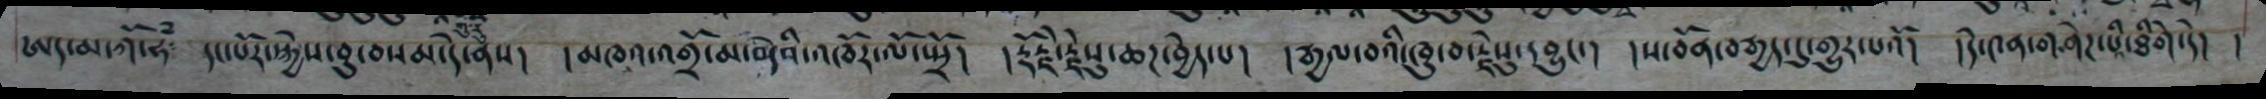ཨད་མ་ཀོ་ཧཾ༴  དང་པོར་སྐྱེས་བུ་བསམ་དེ་ནས།  །མཁའ་འགྲོ་མ་བདེའ་འཁོར་ལོ་སྤྲོ།  །རྡེརྗེ་རྗེསུ་ཆཌ་བྱེད་པ།  །རྒྱལ་བའི་ཁུ་བ་རྗེསུ་དབྱུང་། །ས་བོན་བརྒྱད་དུ་གྱུར་པའོ།  །དེ་༤ན་གཤེཌ་པའི་ཐིགེ་དེ།   །
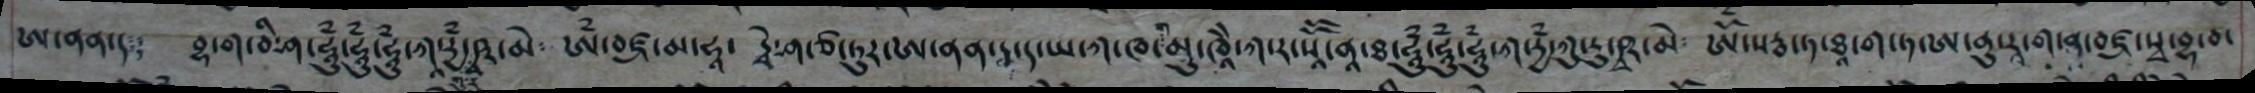ཨ་ནན་ད༴  བྷ་ག་བི་ཤ་ཧཱུྃ་ཧཱུྃ་ཧཱུྃ་ཀཱ་རྱྃ་ཥ་མེ༴  ཨྃ་བཛ་མ་ཧཱ་  དྭེ་ཤ་ཙ་ཏུར་ཨ་ནན་དྭ་ད་ཡ་ཀ་ཁ་ག་མུ་ཁཱེེ་ཀ་ར་སཱོོ་ནཱ་ཐ་ཧཱུྃ་ཧཱུྃ་ཧཱུྃ་ཀ་རྱཾ་ཀུ་རུ་ཥ་མེ༴  ཨོཾ་སརྦ་ཏ་ཐ་ཨ་ནུ་ར་ག་ན་བཛ་སྭ་བྷ་བ་
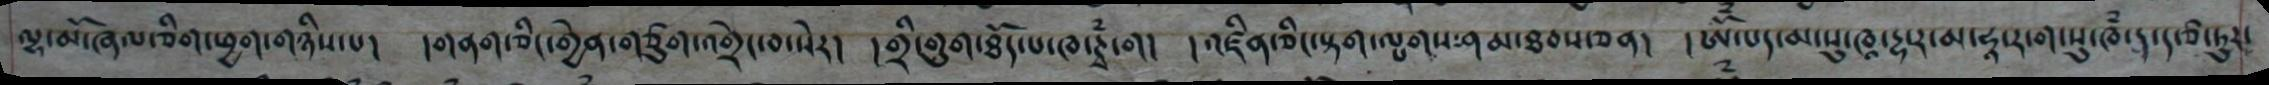ལྷ་མོ་ཞལ་ཅིག་ཕྱག་གཉིས་པ། །གནག་ཅིང་གྱེན་གཙུག་འགྲེང་བ་སེར། །གྲི་གུག་ཐོད་པ་ཁ་ཊྭཾ་ག། །འཛིན་ཅིང་སྟག་ལྤགས་ཤམ་ཐབས་ཅན། །ཨོཾ་པད་མ་སུ་ཁཱ་དྷ་ར་མ་ཧཱ་ར་ག་སུ་ཁཾ་ད་ད་ཙ་ཏུར་
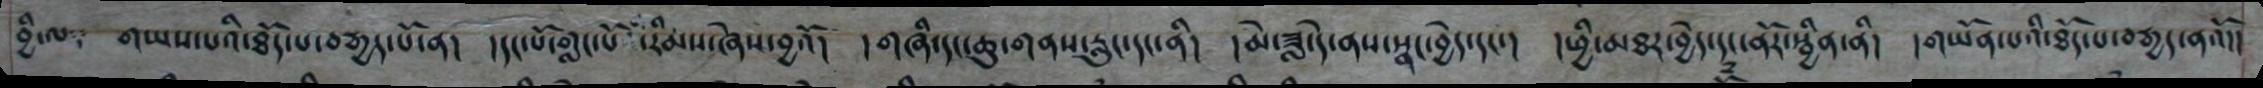བྱི་ལ གཡས་པའི་ཐོད་པ་བརྒྱད་པོ་ན། །དང་པོ་གླང་པོ་རིམས་ཞེས་བྱའོ། །གཞི་དང་ཆུ་གནས་རླུང་དང་ནི། །མེ་ཟླ་དེ་ནས་སྣང་བྱེད་དང་། །ཕྱི་མཐར་བྱེད་དང་ནོར་སྦྱིན་ནི། །གཡོན་པའི་ཐོད་པ་བརྒྱད་ནའོ།།
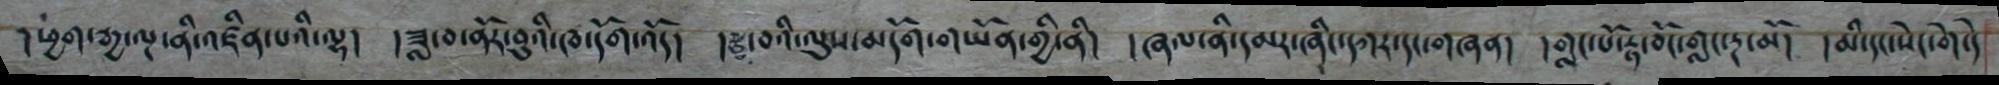།ཕྱག་རྒྱ་ལྔ་ནི་འཛིན་པའི་ལྷ། །ཟླ་བ་ནོར་བུའི་ཁ་དོག་འོད། །རྩ་བའི་ལུས་མདོག་གཡོན་གྱི་ནི། །ཞལ་ནི་དམར་ཞིང་དཀར་དང་གཞན། །གླང་པོ་རྟ་བོང་གླང་རྔ་མོ། །མི་དང་སེང་གེ་དེ
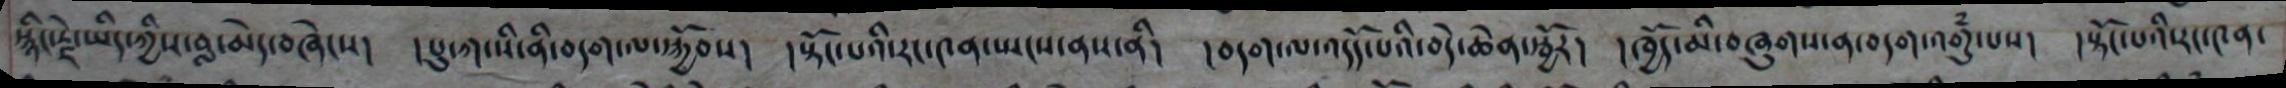སྙིང་རྗེ་ཡིད་ཀྱིས་བླ་མེད་བཞེངས།  །པུ་ཀ་སི་ནི་བདག་ལ་སྐྱོབས། །སྟོང་པའི་རང་༤ན་ཡངས་ནས་ནི། །བདག་ལ་འདོད་པའི་བདེ་ཆེན་སྦྱོར།  །ཁྱོད་མི་བཞུགས་ན་བདག་འགུཾ་པས།  །སྟོང་པའི་རང་༤ན་
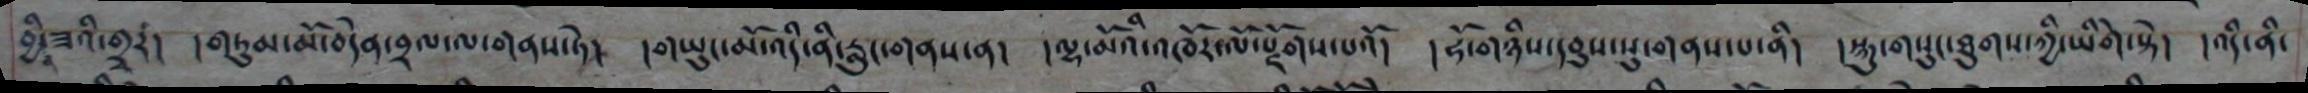བྱི་ཟའི་གྲྭརཾ།  །གཏུམ་མོ་བདེན་བྲལ་ལ་གནས་ཏེ།  །གཡུང་མོ་འདི་ནི་རླུང་གནས་ན།  །ལྷ་མོའི་འཁོར་ལོ་རྫོགས་པའོ།  །ཧོ་གཉིས་དབུས་སུ་གནས་པ་ནི། །སྐུ་གསུ་ཐུགས་ཀྱི་ཡིགེ་སྟེ།  །འདི་ནི་
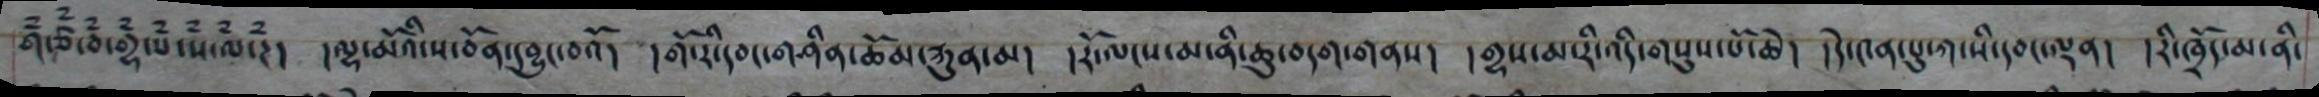གཾ་ཙཾ་ཅཾ་གྷཾ་པཾ་སཾ་ལཾ་ཌཾ   །ལྷ་མོའི་ས་བོན་དབྱུང་བའོ།  །གོ་རི་དབང་གཤིན་ཆོམ་རྐུན་མ།  །རོ་ལངས་མ་ནི་ཆུ་བདག་གནས་།   །གྷས་མ་རི་འདི་གསུས་པོ་ཆེ།  །དེ་༤ན་སུ་ཀ་སི་དབང་ལྡན།  །རི་ཁྲོད་མ་ནི་
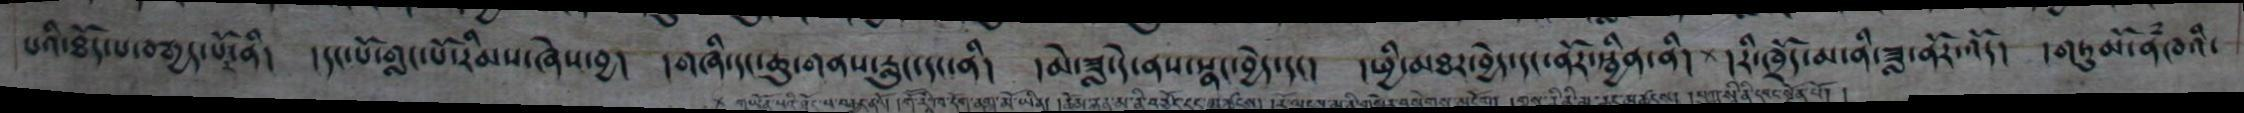པའི་ཐོད་པ་བརྒྱད་པར་ནི།  །དང་པོ་གླང་པོ་རིམས་ཞེས་བྱ།   །གཞི་དང་ཆུ་གནས་རླུང་དང་ནི།  །མེ་ཟླ་དེ་ནས་སྣང་བྱེད་དང།   །ཕྱི་མཐར་བྱེད་དང་ནོར་སྦྱིན་ནི།  རི་ཁྲོད་མ་ནི་ཟླ་ནི་ཟླ་ནོར་འོད།  །གཏུམོ་ནཾཁའི་
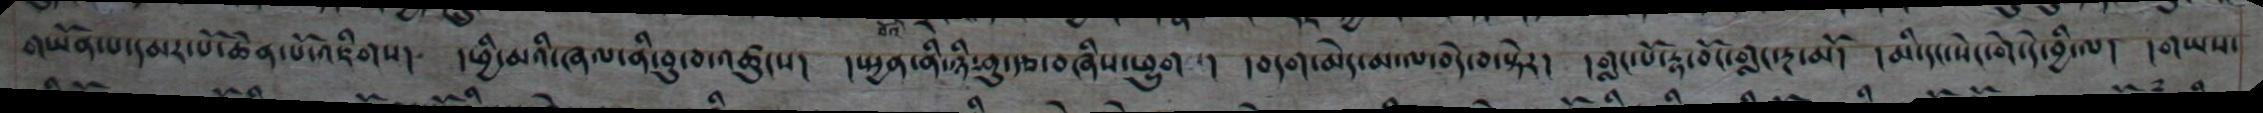གཡོན་པ་དམར་པོ་ཆེན་པོ་འཇིགས།  །ཕྱི་མའི་ཞལ་ནི་བུ་རྩ་འཚུངས། སྤུན་ནི་ཉི་ཤུ་རྩ་བཞི་ཕྱུག།  །བདག་མེད་མ་ལ་བདེ་བ་སྟེར།  གླང་པོ་རྟ་བོང་གླང་ཏཱ་མོ།  །མི་དང་སེང་གེ་དེ་བྱི་ལ།  །གཡས
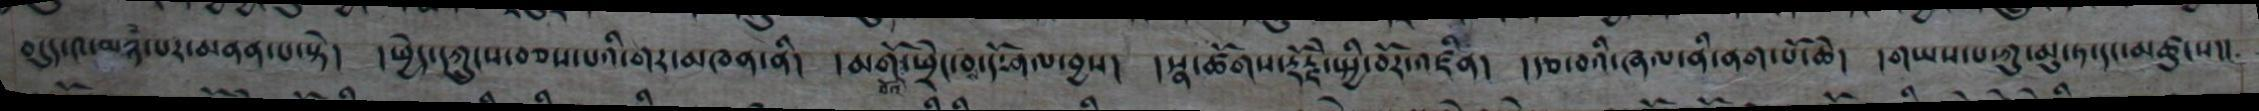བདུད་༤་མཉཾ་པར་མནན་པ་སྟེ།   །ཕྱེད་དཀྲུངས་བཅས་པའི་གར་མཁན་ནི།  །མགོ་བོའི་ཕྲེང་བས་དོ་ཤལ་བྱས།  །སྣ་ཚོགས་རྡོརྗེ་སྤྱི་བོར་འཛིན།  །རྩ་བའི་ཞལ་ནི་ནག་པོ་ཆེ།   །གཡས་པ་ཀུ་མུ་ཏ་དང་མཚུངས།།
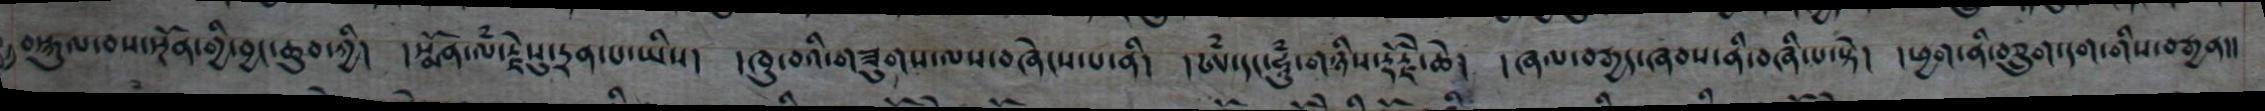བསྐུལ་བས་སྔོན་གྱི་བྱང་ཆུབ་ཀྱི།  སྨོན་ལཾ་རྗེསུ་དྲན་པ་ཡིས།  །ཁུ་བའི་གཟུགས་ལས་བཞེངས་པ་ནི།  ཨཾ་དང་ཧཱུཾ་གཉིས་རྡོརྗེ་ཆེ། ་ཞལ་བརྒྱད་ཞབས་ནི་བཞི་པ་སྟེ།  །ཕྱག་ནི་ཅླུག་དག་གིས་བརྒྱན།།
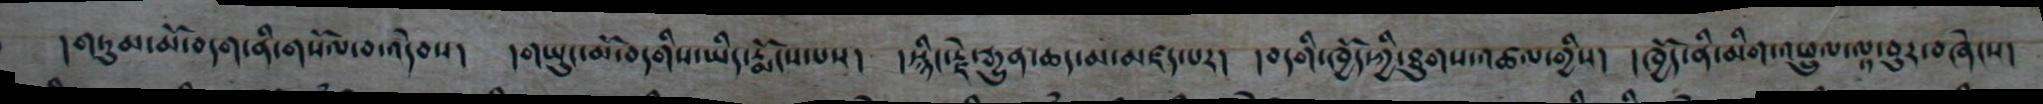།གཏུམ་མོ་བདག་ནི་གསོལ་བ་འདེབས།  །གཡུ་མོ་བདགི་ཡིད་སྨོངས་པས།  །སྙིང་རྗེ་རྒྱུན་ཆད་མ་མཛད་པར།   བདགི་ཁྱོད་ཀྱི་ཐུགས་འཚལ་གྱིས།   །ཁྱོད་ནི་མིག་འཕླུལ་ལྟ་བུར་བཞེངས།
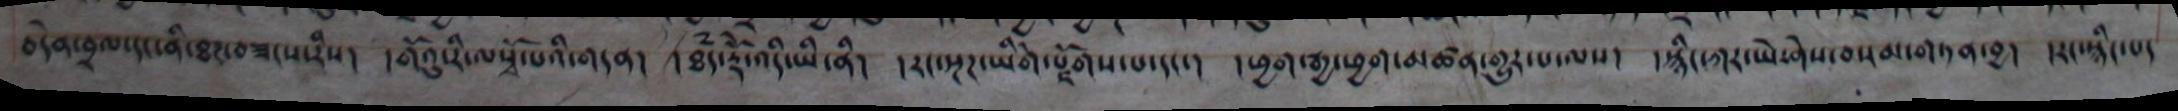བདེན་བྲལ་དང་ནི་ཐཌ་བཟངས་རིས། །གོའུ་རི་ལསྭོ་པོའི་གདན། །ཐཾད་རྡོེ་འདི་ཡི་ནི། །རང་སྔཌ་ཡི་གེ་སྫོགས་པ་དང་། །ཕྱག་རྒྱ་ཕྱག་མཚན་གྱུར་པ་ལས། །སྙིང་ཀར་ཡེ་ཤེས་བསམ་གཏན་བྱ། །རང་སྙིང་པ།
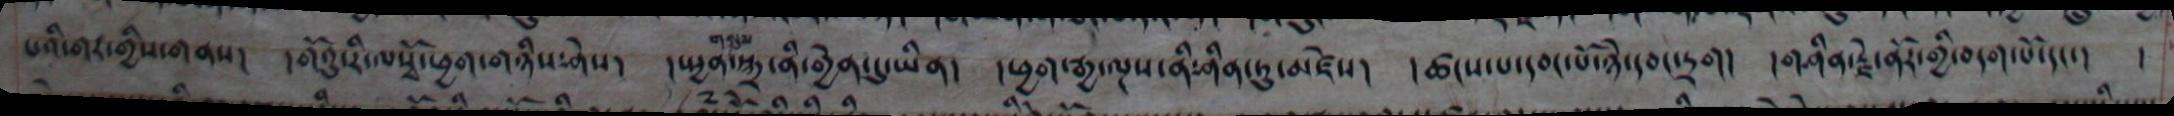པའི་གར་གྱིས་གནས།  །གོའུ་རི་ལསྭོ་ཕྱག་གཉིས་ཤེས།  །སྤྱན་གསུམ་སྐྲ་ནི་གྱེན་དུ་ཡིན།   །ཕྱག་རྒྱ་ལྔས་ནི་ཤིན་ཏུ་མཛེས།  །ཚངས་པ་དབང་པོ་ཉེ་དབང་དྲག།   །གཤིན་རྗེ་ནོར་གྱི་བདག་པོ་དང་།   །
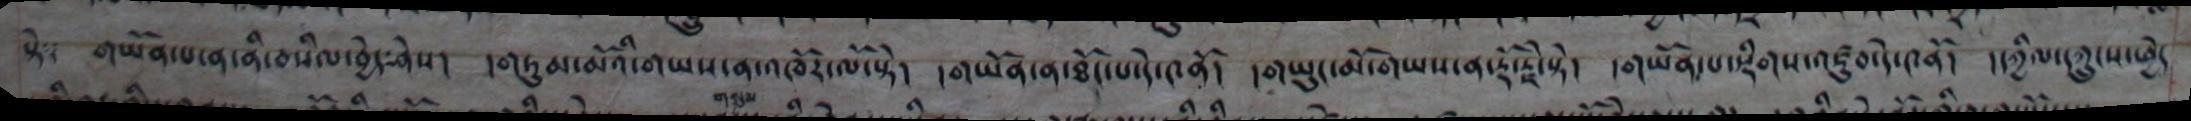སྟེ གཡོན་པ་ན་ནི་བསིལ་བྱེད་ཤེས། །གཏུམ་མོའི་གཡས་ན་འཁོར་ལོ་སྟེ། །གཡོན་ན་ཐོད་པ་དེ་༤ནོ། །གཡུང་མོ་གཡས་ན་རྡོ་རྗེ་སྟེ། །གཡོན་པ་སྡིགས་འཛུབ་དེ་༤ནོ། །དཀྱིལ་དཀྲུངས་ཕྱེད
